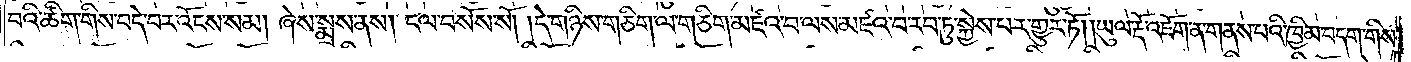བའི་ཚིག་གིས་བདེ་བར་འོངས་སམ། ཞེས་སྨྲས་ནས། ངལ་བསོས་སོ། །དེ་གཉིས་གཅིག་ལ་གཅིག་མཛའ་བ་ལས་མཛའ་བ་རབ་ཏུ་སྐྱེས་པར་གྱུར་ཏོ། །ཡུལ་རྡོ་འཇོག་ན་གནས་པའི་ཁྱིམ་བདག་གིས་
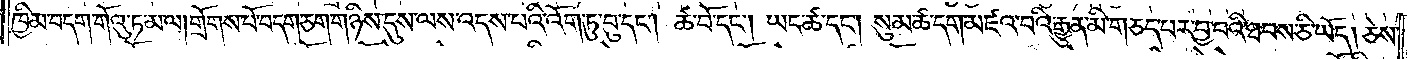ཁྱིམ་བདག་གོའུ་ཏ་མ་ལ། གྲོགས་པོ་བདག་ཅག་གཉིས་དུས་ལས་འདས་པའི་འོག་ཏུ་བུ་དང༌། ཚ་བོ་དང༌། ཡང་ཚ་དང༌། སུམ་ཚ་དག་མཛའ་བའི་རྒྱུན་མི་གཅད་པར་བྱ་བའི་ཐབས་ཅི་ཡོད། ཅེས་
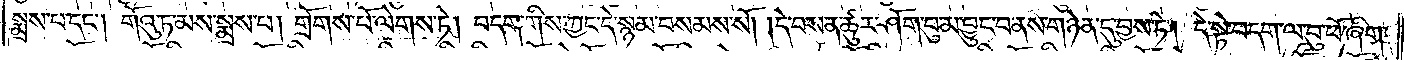སྨྲས་པ་དང༌། གོའུ་ཏ་མས་སྨྲས་པ། གྲོགས་པོ་ལེགས་ཏེ། བདག་གིས་ཀྱང་དེ་སྙམ་བསམས་སོ། །དེ་བས་ན་ཚུར་ཤོག་བུ་མ་བྱུང་བ་ནས་གཉེན་དུ་བྱས་ཏེ། དེ་སྟེ་བདག་ལ་བུ་ཕོ་ཞིག་
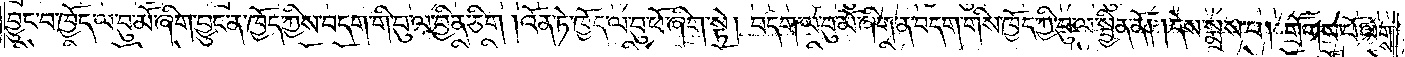བྱུང་བ་ཁྱོད་ལ་བུ་མོ་ཞིག་བྱུང་ན་ཁྱོད་ཀྱིས་བདག་གི་བུ་ལ་བྱིན་ཅིག །འོན་ཏེ་ཁྱོད་ལ་བུ་ཕོ་ཞིག་སྟེ། བདག་ལ་བུ་མོ་ཞིག་ན་བདག་གིས་ཁྱོད་ཀྱི་བུ་ལ་སྦྱིན་ནོ། །དེས་སྨྲས་པ། གྲོགས་པོ་ལེགས་
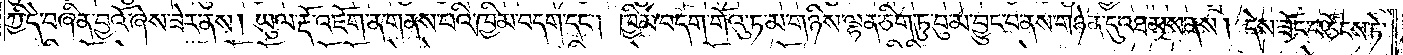ཀྱི་དེ་བཞིན་བྱའོ་ཞེས་ཟེར་ནས། ཡུལ་རྡོ་འཇོག་ན་གནས་པའི་ཁྱིམ་བདག་དང༌། ཁྱིམ་བདག་གོའུ་ཏ་མ་གཉིས་ལྷན་ཅིག་ཏུ་བུ་མ་བྱུང་བ་ནས་གཉེན་དུ་འཐམས་ནས། དེས་ཟོང་བཙོངས་ཏེ་
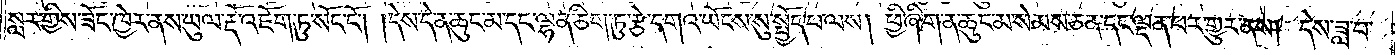སླར་གྱིས་ཟོང་ཁྱེར་ནས་ཡུལ་རྡོ་འཇོག་ཏུ་སོང་ངོ༌། །དེས་དེ་ན་ཆུང་མ་དང་ལྷན་ཅིག་ཏུ་རྩེ་དགའ་ཡོངས་སུ་སྤྱོད་པ་ལས། ཕྱི་ཞིག་ན་ཆུང་མ་སེམས་ཅན་དང་ལྡན་པར་གྱུར་ནས། དེས་ཟླ་བ་
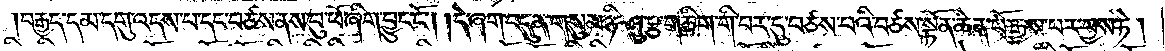བརྒྱད་དམ་དགུ་འདས་པ་དང་བཙས་ནས་བུ་ཕོ་ཞིག་བྱུང་ངོ༌། །དེ་ཞག་བདུན་གསུམ་ཉི་ཤུ་རྩ་གཅིག་གི་བར་དུ་བཙས་པའི་བཙས་སྟོན་ཆེན་པོ་རྒྱས་པར་བྱས་ཏེ།
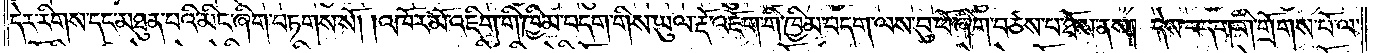དེར་རིགས་དང་མཐུན་པའི་མིང་ཞིག་བཏགས་སོ། །འཁོར་མོ་འཇིག་གི་ཁྱིམ་བདག་གིས་ཡུལ་རྡོ་འཇོག་གི་ཁྱིམ་བདག་ལས་བུ་ཕོ་ཞིག་བཙས་པ་ཐོས་ནས། དེས་བདག་གི་གྲོགས་པོ་ལ་
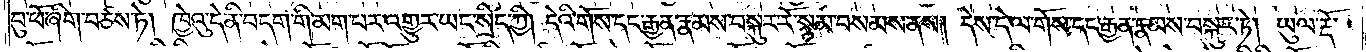བུ་ཕོ་ཞིག་བཙས་ཏེ། ཁྱེའུ་དེ་ནི་བདག་གི་མག་པར་འགྱུར་ཡང་སྲིད་ཀྱི། དེའི་གོས་དང་རྒྱན་རྣམས་བསྐུར་རོ་སྙམ་བསམས་ནས། དེས་དེ་ལ་གོས་དང་རྒྱན་རྣམས་བསྐུར་ཏེ། ཡུལ་རྡོ་
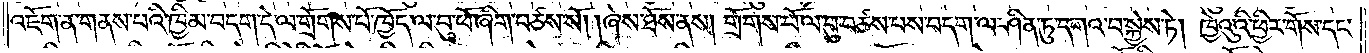འཇོག་ན་གནས་པའི་ཁྱིམ་བདག་དེ་ལ་གྲོགས་པོ་ཁྱོད་ལ་བུ་ཕོ་ཞིག་བཙས་སོ། །ཞེས་ཐོས་ནས། གྲོགས་པོ་ལ་བུ་བཙས་པས་བདག་ལ་ཤིན་ཏུ་དགའ་བ་སྐྱེས་ཏེ། ཁྱེའུའི་ཕྱིར་གོས་དང་
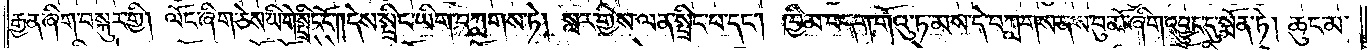རྒྱན་ཞིག་བསྐུར་གྱི། ལོང་ཞིག་ཅེས་ཡི་གེ་སྤྲིང་ངོ༌། །དེས་སྤྲིང་ཡིག་བཀླགས་ཏེ། སླར་གྱིས་ལན་སྤྲིང་པ་དང༌། ཁྱིམ་བདག་གོའུ་ཏ་མས་དེ་བཀླགས་ནས་བུ་མོ་ཞིག་འབྱུང་དུ་སྨོན་ཏེ། ཆུང་མ་
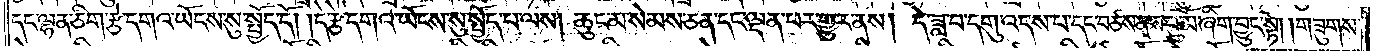དང་ལྷན་ཅིག་རྩེ་དགའ་ཡོངས་སུ་སྤྱོད་དོ། །དེ་རྩེ་དགའ་ཡོངས་སུ་སྤྱོད་པ་ལས། ཆུང་མ་སེམས་ཅན་དང་ལྡན་པར་གྱུར་ནས། དེ་ཟླ་བ་དགུ་འདས་པ་དང་བཙས་ནས་བུ་མོ་ཞིག་བྱུང་སྟེ། གཟུགས་
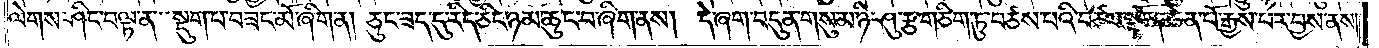ལེགས་ཤིང་བལྟ་ན་སྡུག་པ་བཟང་མོ་ཞིག་ན། ཅུང་ཟད་དུ་རིད་ཅིང་ཉམ་ཆུང་བ་ཞིག་ནས། དེ་ཞག་བདུན་གསུམ་ཉི་ཤུ་རྩ་གཅིག་ཏུ་བཙས་པའི་བཙས་སྟོན་ཆེན་པོ་རྒྱས་པར་བྱས་ནས།
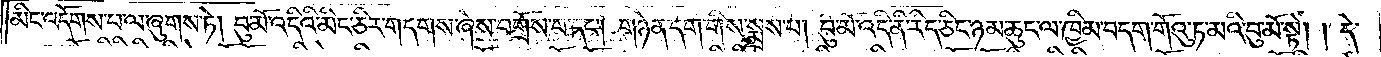མིང་འདོགས་པ་ལ་ཞུགས་ཏེ། བུ་མོ་འདིའི་མིང་ཅིར་གདགས་ཞེས་བགྲོས་པ་དང༌། གཉེན་དག་གིས་སྨྲས་པ། བུ་མོ་འདི་ནི་རིད་ཅིང་ཉམ་ཆུང་ལ་ཁྱིམ་བདག་གོའུ་ཏ་མའི་བུ་མོ་སྟེ། །དེ་
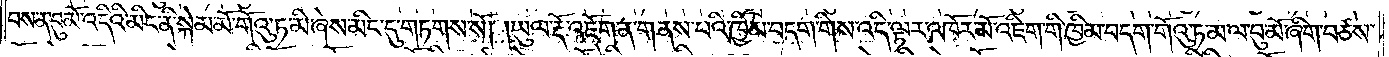བས་ན་བུ་མོ་འདིའི་མིང་ནི་སྐེམ་མོ་གོའུ་ཏ་མི་ཞེས་མིང་དུ་གཏགས་སོ། །ཡུལ་རྡོ་འཇོག་ན་གནས་པའི་ཁྱིམ་བདག་གིས་འདི་ལྟར་འཁོར་མོ་འཇིག་གི་ཁྱིམ་བདག་གོའུ་ཏ་མ་ལ་བུ་མོ་ཞིག་བཙས་
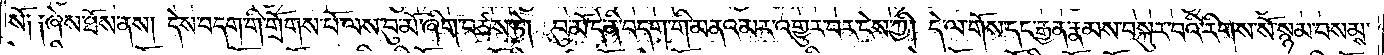སོ༑ ༑ཞེས་ཐོས་ནས། དེས་བདག་གི་གྲོགས་པོ་ལས་བུ་མོ་ཞིག་བཙས་ཏེ། བུ་མོ་དེ་ནི་བདག་གི་མནའ་མར་འགྱུར་བར་ངེས་ཀྱི། དེ་ལ་གོས་དང་རྒྱན་རྣམས་བསྐུར་བའི་རིགས་སོ་སྙམ་བསམས་
